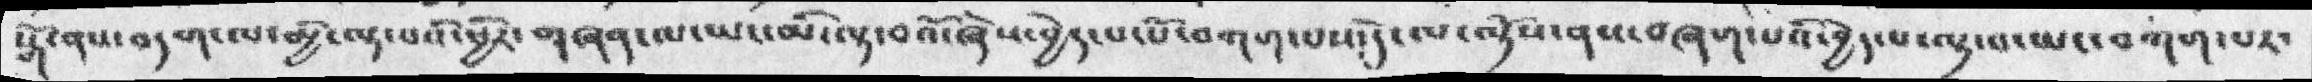སྒོ་ནས་བདག་ལ་མྱི་ལྟ་པའི་ཕྱིར་གཞན་ལ་ཡང་མི་ལྟ་བའོ་ཞེས་བྱེད་པ་པོ་བཀག་པས་དེ་ལ་ལྟོས་ནས་བཞག་པའི་བྱེད་པ་ལྟ་བ་ཡང་བཀག་པར་
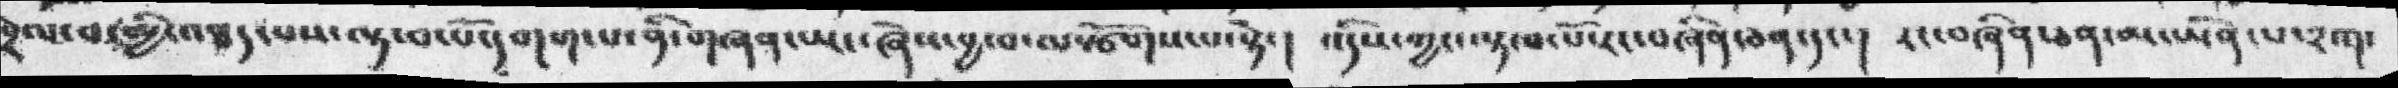བྲེལ་བ་མྱི་འཐད་པས་ལྟ་བ་པོ་དགག་པ་ནི་གཞཉ་ཡང་ཞེས་བྱ་བ་ལསྩོགས་པ་སྟེ་།  འདིས་ཀྱང་ལྟ་བ་པོ་རང་བཞིན་ཅན་དང་།  རང་བཞིན་ཅན་མ་ཡིན་པ་༢ཀ་
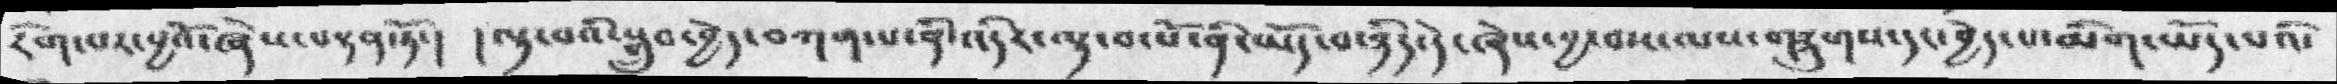རེག་པར་བྱའོ་ཞེས་བསྟན་ཏོ་།  །ལྟ་བའི་སྒྲུབ་བྱེད་བཀག་པ་ནི་འདིར་ལྟ་བ་པོ་ནི་ཡོད་བ་ཉིད་དེ་ཞེས་བྱ་བས་ལས་གཟུགས་དང་བྱེད་པ་མིག་ཡོད་པའི་
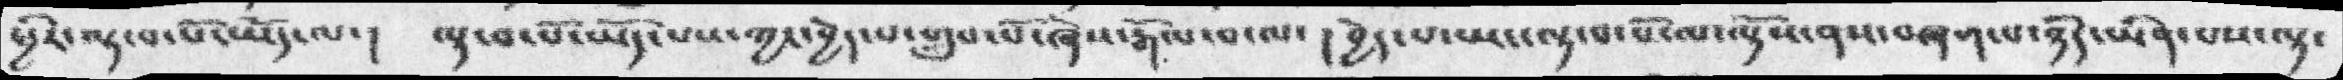ཕྱིར་ལྟ་བ་པོ་ཡོད་ལ་།  ལྟ་བ་པོ་ཡོད་པས་ཀྱང་བྱེད་པ་གྲུབ་པོ་ཞེས་རྒོལ་བ་ལ་། བྱེད་པ་ཡང་ལྟ་བ་པོ་ལ་ལྟོས་ནས་བཞག་པ་ཉིད་ཡིན་པས་ལྟ་
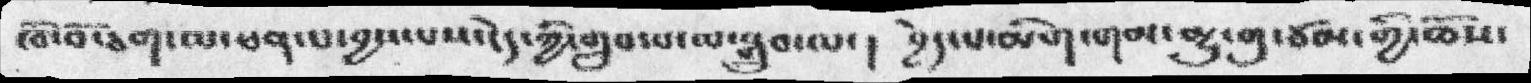ཁོ་བོ་ཅག་ལ་ཕན་པ་བྱས་པས་ངེད་ཀྱི་གྲུབ་པ་ལ་སྒྲུབ་ལ་།  བྱེད་པ་མིག་གམ་མྱུ་གུ་ཙམ་གྱི་ཆོས་
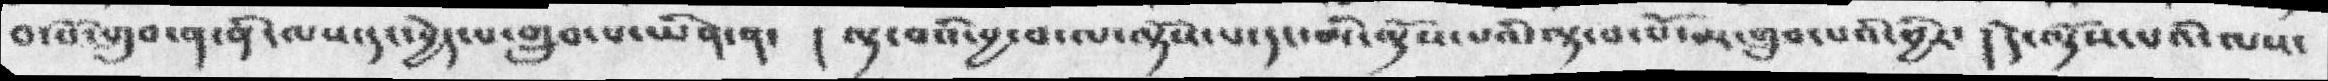བ་པོ་གྲུབ་ན་ནི་ལས་དང་བྱེད་པ་གྲུབ་པ་ཡིན་ན་ ། ལྟ་བའི་བྱ་བ་ལ་ལྟོས་པ་དང་མི་ལྟོས་པའི་ལྟ་བ་པོ་མ་གྲུབ་པའི་ཕྱིར་། དེ་ལྟོས་པའི་ལས་
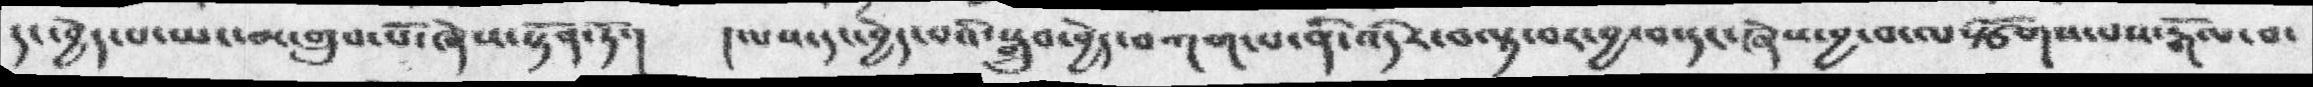དང་བྱེད་པ་ཡང་མ་གྲུབ་པོ་ཞེས་སྟོན་ཏོ་།   །ལས་དང་བྱེད་པའི་སྒྲུབ་བྱེད་བཀག་པ་ནི་འདིར་བལྟ་བར་བྱ་བ་དང་ཞེས་བྱ་བ་ལསྩོགས་པས་རྒོལ་བ་
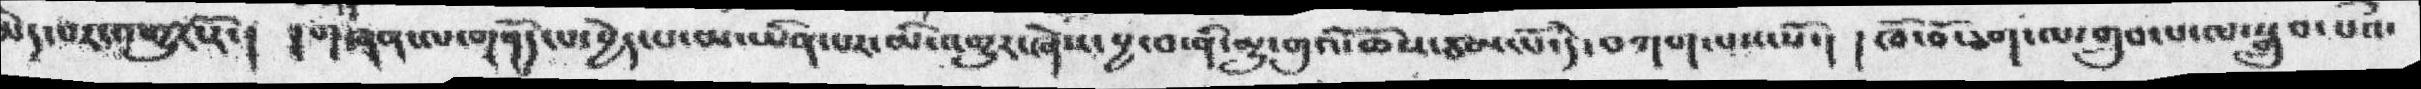མེད་པར་འགྱུར་རོ་།  །གཞན་ལ་གནོད་པ་བྱེད་པ་མ་ཡིན་པར་མི་འགྱུར་ཞེས་བྱ་བ་ནི་མྱུ་གུའི་ཆོས་ཙམ་པོ་དེ་བཀག་པས་སོ་།  །ཁོ་བོ་ཅག་ལ་གྲུབ་པ་ལ་སྒྲུབ་པའྀ་
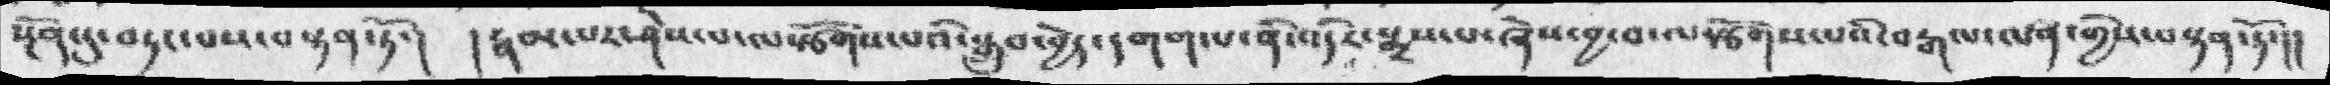སྔོན་དུ་བཏང་པས་བསྟན་ཏོ་།  །རྣམ་པར་ཤེས་པ་ལསྩོགས་པའི་སྒྲུབ་བྱེད་དགག་པ་ནི་འདིར་སྨྲས་པ་ཞེས་བྱ་བ་ལསྩོགས་པའི་བརྒལ་ལན་གྱིས་བསྟན་ཏོ་།།
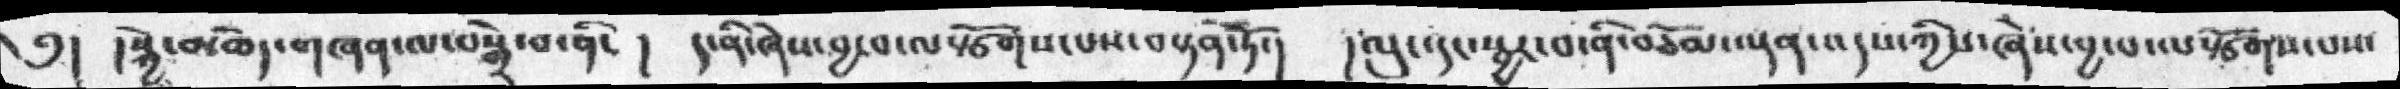༅། །སྐྱེ་མཆེད་གཞན་ལ་བསྒྲེ་བ་ནི་།  ད་ནི་ཞེས་བྱ་བ་ལསྩོགས་པས་བསྟན་ཏོ་།  །ལུང་དང་སྦྱར་བ་ནི་བཅོམ་ལྡན་འདས་ཀྱིས་ཞེས་བྱ་བ་ལསྩོགས་པས་
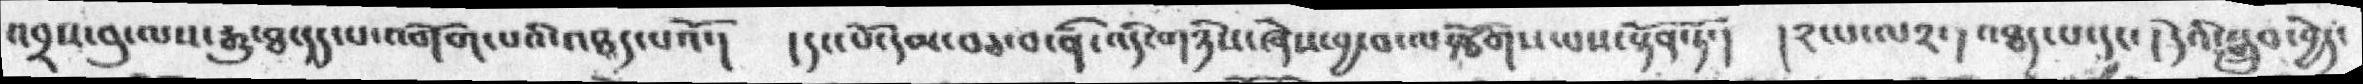འབྲས་བུ་ལས་རྒྱུ་ཐ་དད་པ་འགོག་པའི་འཐད་པའོ་།  །དང་པོ་དམ་བཅ་བ་ནི་འདི་གཉིས་ཞེས་བྱ་བ་ལསྩོགས་པས་སྟོན་ཏོ་།  །༢་པ་ལ༢་། འཐད་པ་དང་། དེའི་སྒྲུབ་བྱེད་
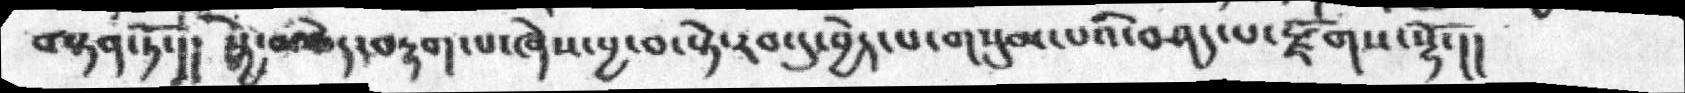བསྟན་ཏོ་།། སྐྱེ་མཆེད་བརྟག་པ་ཞེས་བྱ་བ་སྟེ་རབ་དུ་བྱེད་པ་གསུམ་པའི་བཤད་པ་རྫོགས་སྷོ་།།
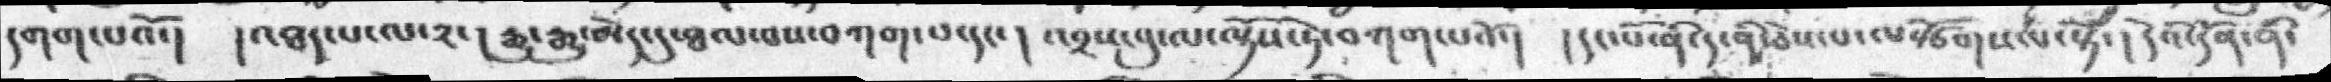དགག་པའོ་།  །འཐད་པ་ལ་༢་། རྒྱུ་རྒྱུ་མེད་དུ་ཐལ་བས་བཀག་པ་དང་། འབྲས་བུ་ལ་ལྟོས་ཏེ་བཀག་པའོ་།  །དང་པོ་ནི་ད་ནི་ཅེས་པ་ལསྩོགས་པ་སྟེ་། དེའི་དོན་ནི་
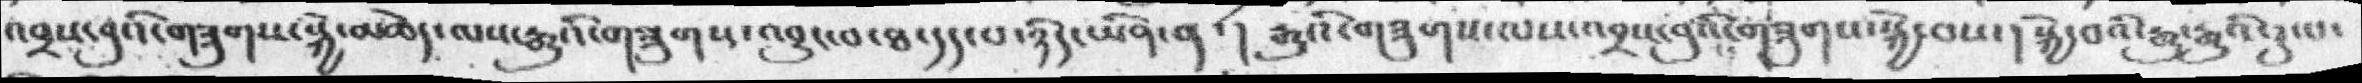འབྲས་བུའི་གཟུགས་སྐྱེ་མཆེད་ལས་རྒྱུའི་གཟུགས་འབྱུང་བ་ཐ་དད་པ་ཉིད་ཡིན་ན་། རྒྱུའི་གཟུགས་ལས་འབྲས་བུའི་གཟུགས་སྐྱེ་བས་། སྐྱེ་བའི་རྒྱུ་རྒྱུའི་དུ་པ་
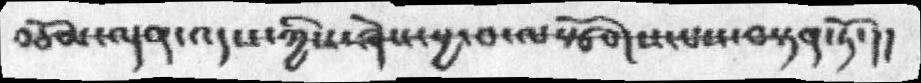བཅོམ་ལྡན་འདས་ཀྱིས་ཞེས་བྱ་བ་ལསྩོགས་པས་བསྟན་ཏོ་།།
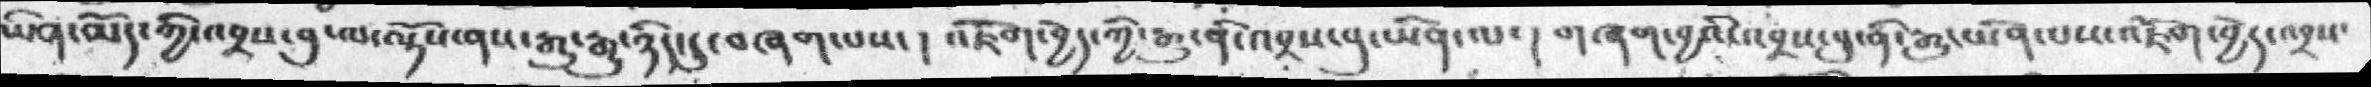ཡིན་མོད་ཀྱི་འབྲས་བུ་ལ་ལྟོས་ནས་རྒྱུ་རྒྱུ་ཉིད་དུ་བཞག་པས་།  འཇིག་བྱེད་ཀྱི་རྒྱུ་ནི་འབྲས་བུ་ཡིན་ལ་། གཞག་བྱའི་འབྲས་བུ་ནི་རྒྱུ་ཡིན་པས་འཇོག་བྱེད་འབྲས་
